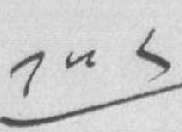༡༥༨
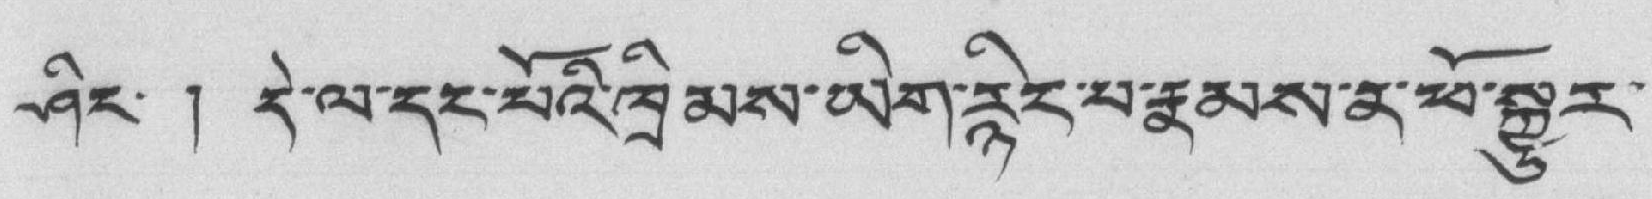ཤིང་ ། དེ་ལ་དང་པོའི་ཁྲིམས་ཡིག་རྙིང་པ་རྣམས་ན་ཕོ་སྐྱུར་
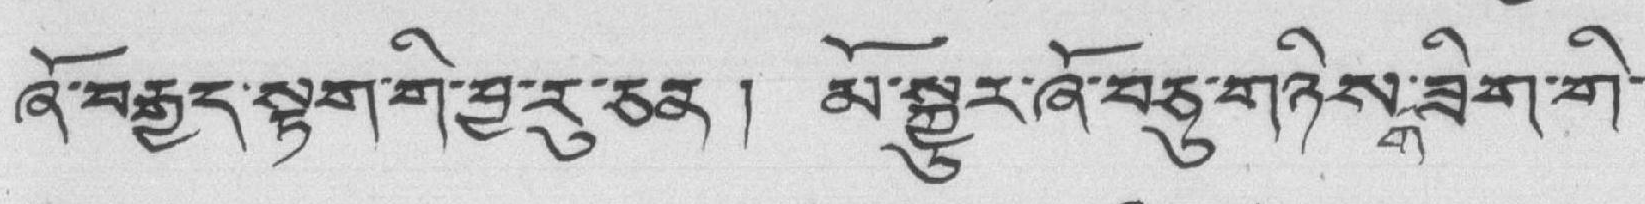ཞོ་བརྒྱད་སྟག་གི་བྱ་རུ་ཅན ། མོ་སྐྱུར་ཞོ་བཅུ་གཉིས་གཟིག་གི་
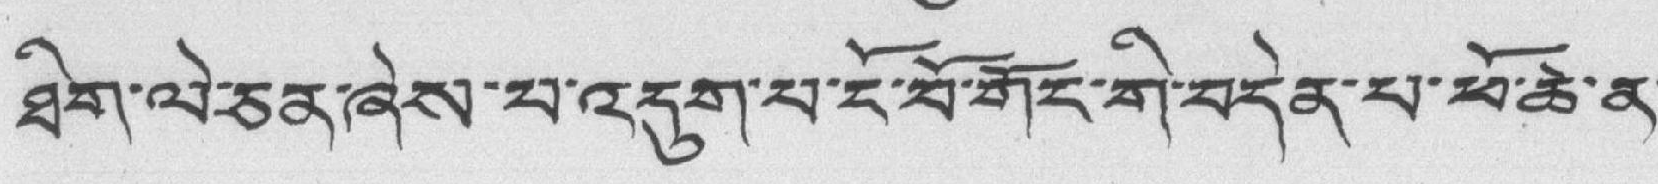ཐིག་ལེ་ཅན་ཞེས་པ་འདུག་པ་ངོ་བོ་གོང་གི་བདེན་པ་ཕོ་ཆེ་ན་
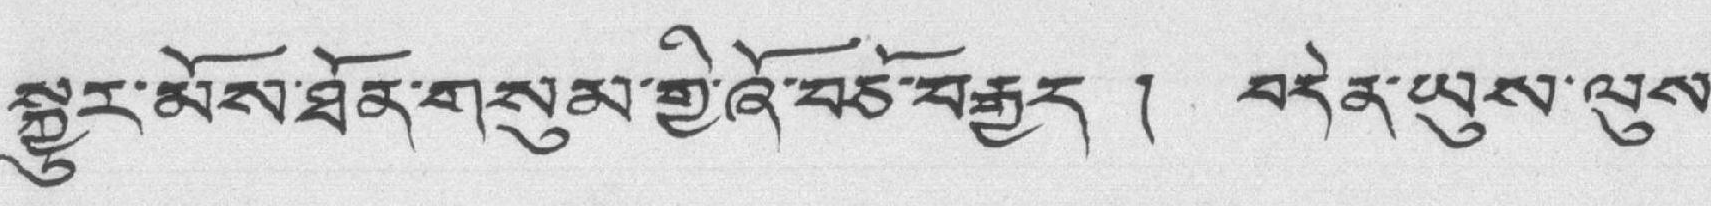སྐྱུར་མོས་ཐོན་གསུམ་གྱི་ཞོ་བཅོ་བརྒྱད ། བདེན་ཡུས་ལུས་
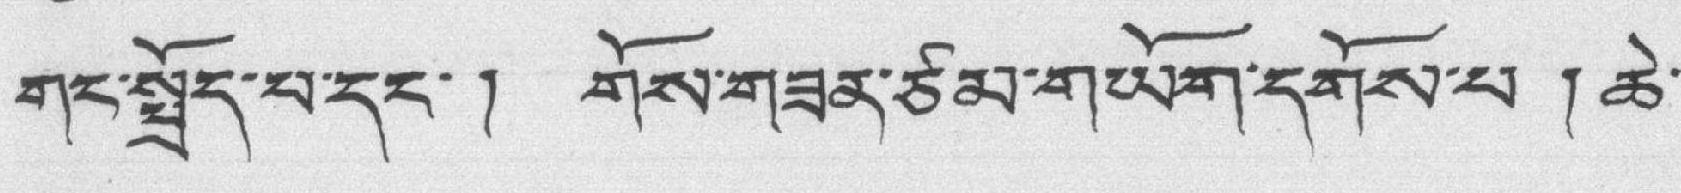གང་སྤྲོད་པ་དང་། གོས་གཟན་ཙམ་གཡོག་དགོས་པ ། ཆེ་
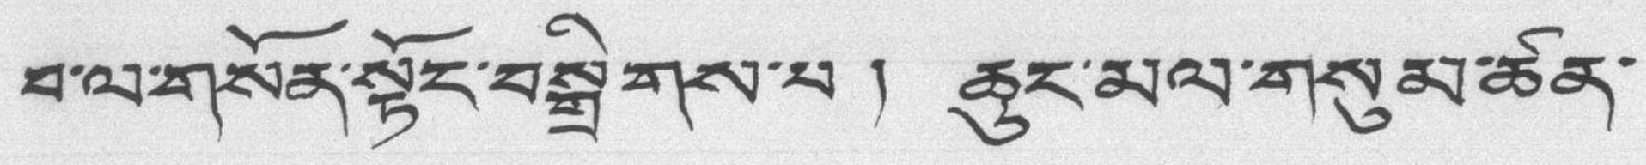བ་ལ་གསོན་སྟོང་བསྒྲིགས་པ ། ཆུང་མལ་གསུམ་ཚན་
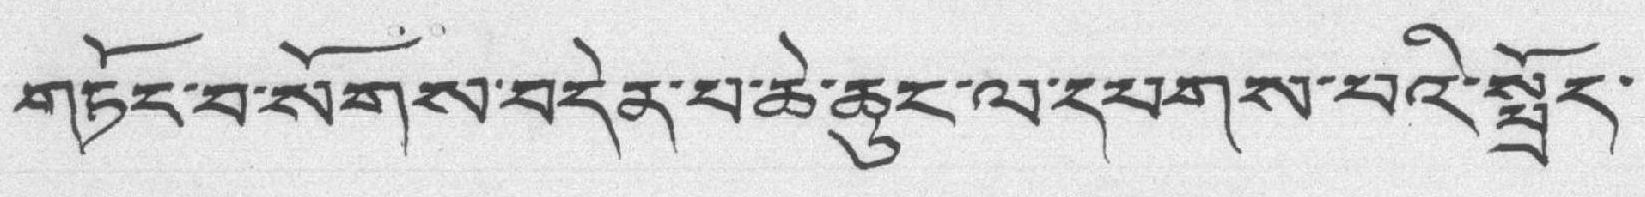གཏོང་བ་སོགས་བདེན་པ་ཆེ་ཆུང་ལ་དཔགས་པའི་སྤྲོད་
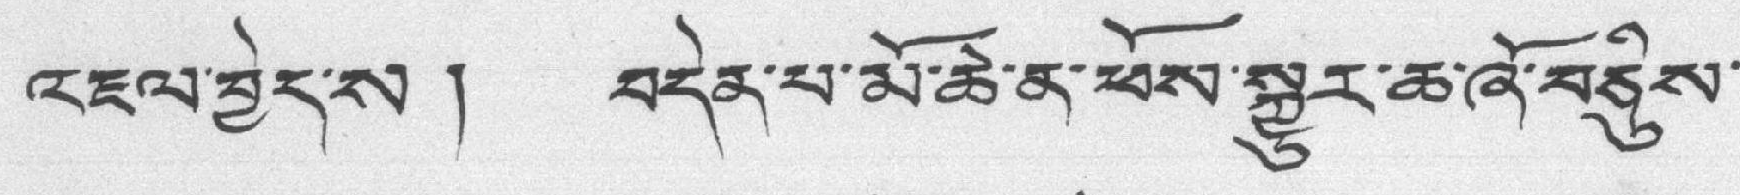འཇལ་བྱེད་ས ། བདེན་པ་མོ་ཆེ་ན་ཕོས་སྐྱུར་ཆ་ཞོ་བཅིུས་
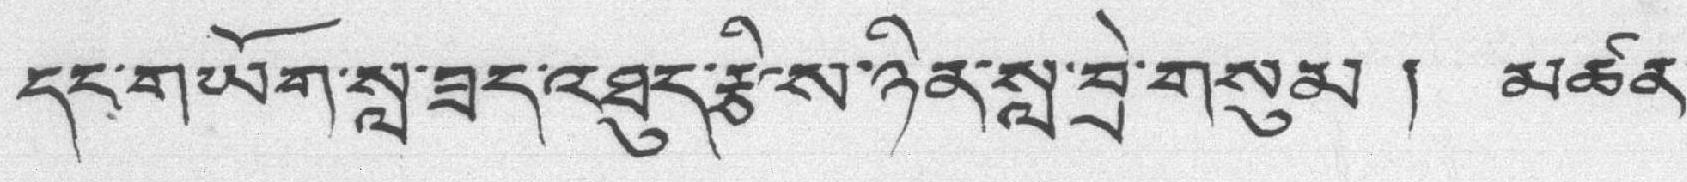དང་གཡོག་སླ་ཟད་འཐུད་རྩིས་ཉིན་སླ་བྲེ་གསུམ ། མཚན་
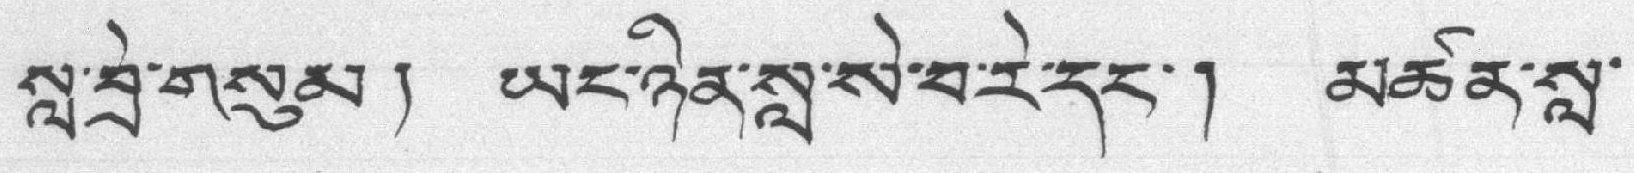སླ་བྲེ་གསུམ། ཡང་ཉིན་སླ་སེ་བ་རེ་དང་། མཚན་སླ་
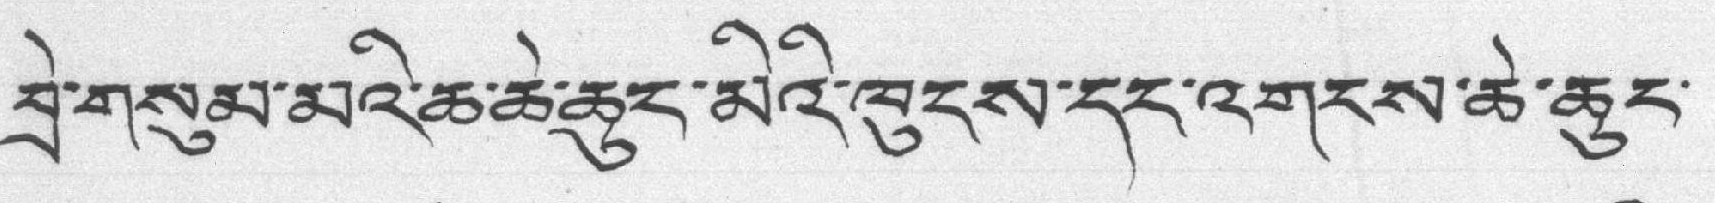བྲེ་གསུམ་མའི་ཆ་ཆེ་ཆུང་མིའི་ཁུངས་དང་འགངས་ཆེ་ཆུང་
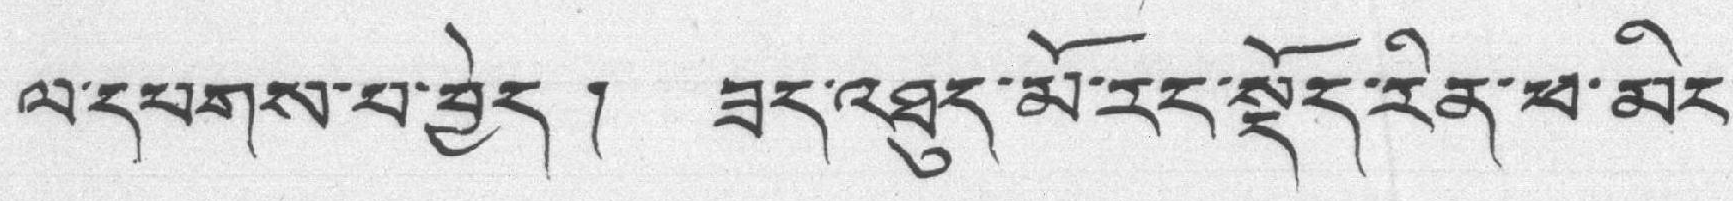ལ་དཔགས་པ་བྱེད། ཟད་འཐུད་མོ་རང་སྡོད་རིན་ཕ་མིང་
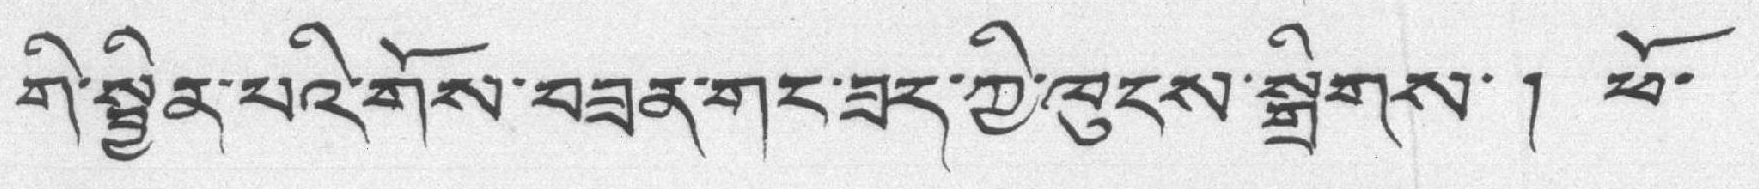གི་སྦྱིན་པའི་གོས་བཟན་གང་ཟད་ཀྱི་ཁུངས་སྒྲིགས་། ཕོ་
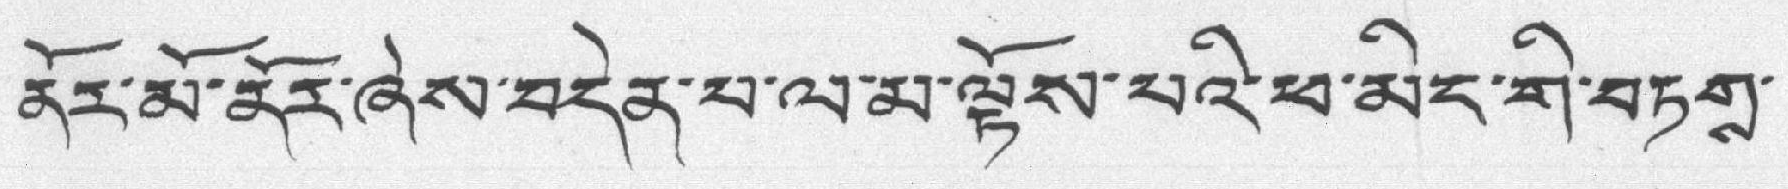ནོར་མོ་ནོར་ཞེས་བདེན་པ་ལ་མ་ལྟོས་པའི་ཕ་མིང་གི་བཏགས་
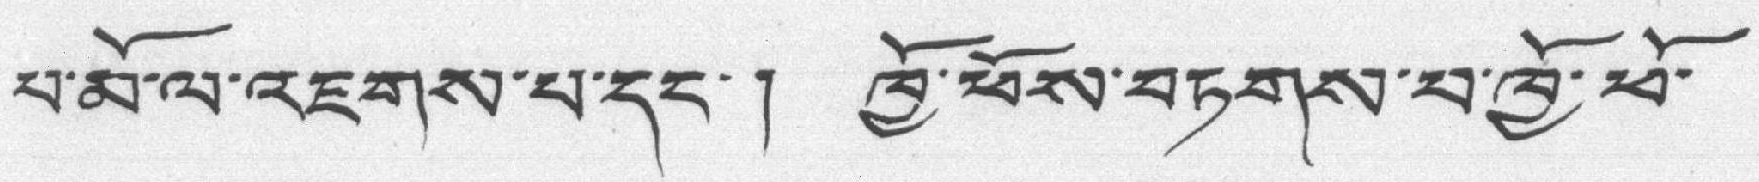པ་མོ་ལ་འཇགས་པ་དང་། ཁྱོ་ཕོས་བཏགས་པ་ཁྱོ་ཕོ་
